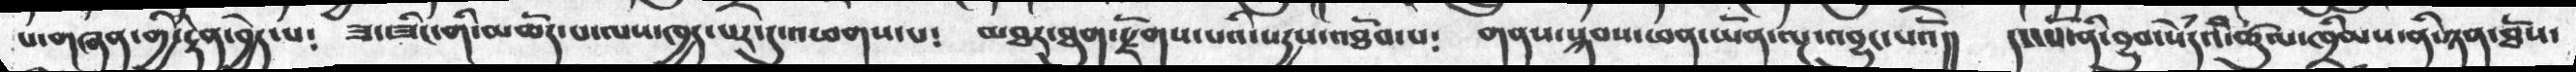པ་གཞན་གྱི་རྟེན་བྱེད་པ༴ ཟང་ཟིང་གི་མཆོད་པ་ལས་ཁྱད་པར་དུ་འཕགས་པ༴ མཐར་ཐུག་སྫོགས་པའི་སདྱས་འཐོབ་པ༴ གནས་སྐབས་ཕན་ཡོན་འབྱུང་པའོ།། དང་པོ་ནི་བྱུབ་སེཾདའི་ཚུལ་ཁྲིམས་ནི་ཉན་ཐོས་
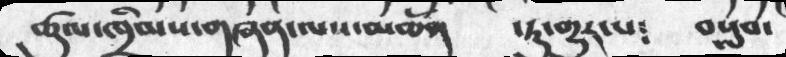ཚུལ་ཁྲིམས་གཞན་ལས་མཆོག ་ཏུ་གྱུར་པ༴ བསླབ་
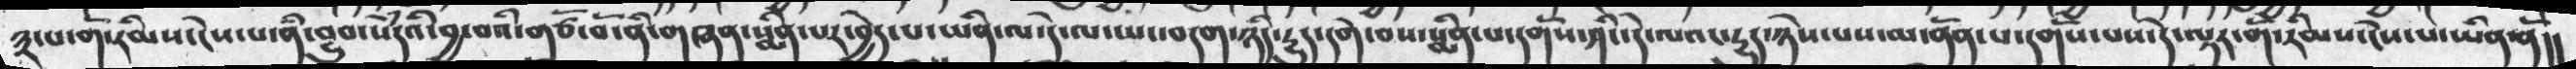༣་པ་གོ་རིམས་ངེས་པ་ནི་བྱུབ་སེཾདའི་བྱ་བའི་གཙོ་བོ་ནི་གཞན་སྨིན་པར་བྱེད་པ་ཡིན་ལ་དེ་ལ་ཡང་བདག་ཉིད་རྱུད་དགེ་བས་སྨིན་པ་དགོས་ཤིང་དེ་ལའང་རྱུད་ཉེས་པས་མ་ནོན་པ་དགོས་པས་དེ་ལྟར་གོ་རིམས་ངེས་པ་ཡིན་ནོ།།
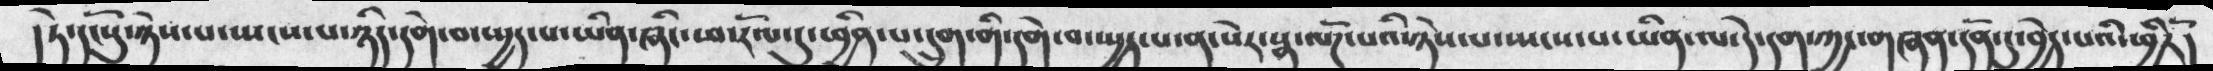།ཏེ་དངོསུ་ཉེས་པ་སྤངས་པ་ཉིད་དགེ་བ་སྤྱད་པ་ཡིན་ཞིང་ཕ་རོལ་དུ་ཕྱིན་པ་དྲུག་གི་དགེ་བ་སྤྱད་པ་ན་སེར་སྣ་ལོཌ་པའི་ཉེས་པ་སྤངས་པ་ཡིན་ལ་དེ་དག་ཀྱང་གཞན་དོན་དུ་བྱེད་པའི་ཕྱིརོ།
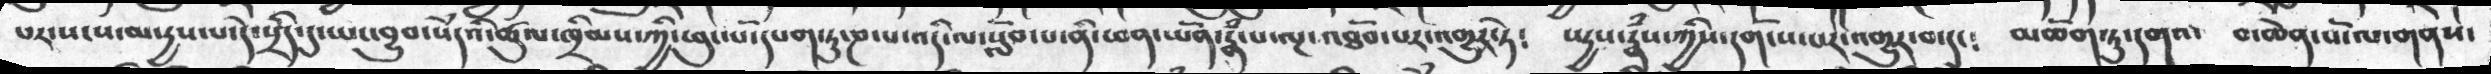པར་སངས་མ་དྱས་པ་དེ་སྲིད་དུ་ཡང་བྱུབ་སེཾདའི་ཚུལ་ཁྲིམས་ཀྱི་ཕུང་པོ་དཔག་ཏུ་ཎ་པ་འདི་ལ་སློབ་པ་ནི་ཕན་ཡོན་རྣཾ་པ་ལྔ་འཐོབ་པར་འགྱུར་ཏེ༴ སདྱས་རྣཾས་ཀྱིས་དགོངས་པར་འགྱུར་བ་དང༴ མཆོག་ཏུ་དགའ་ བ་ཆེན་པོ་ལ་གནས་
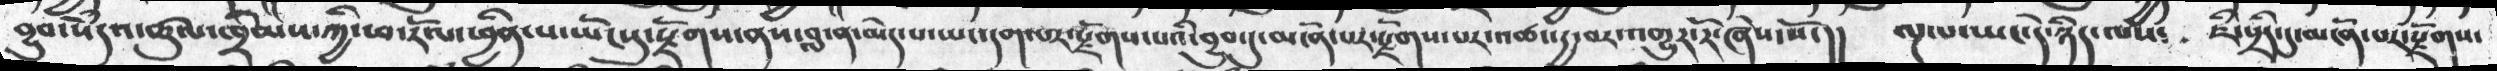བྱུབ་སེཾདའ་ཚུལ་ཁྲིམས་ཀྱི་ཕ་རོལ་ཕྱིན་པ་ཡོངསུ་སཛོགས་ནས་བླ་ན་མེད་པ་ཡང་དག་པར་སྫོགས་པའི་བྱུབ་དུ་མངོན་པར་སྫོགས་པར་འཚང་དྱ་བར་འགྱུར་རོ་ཞེས་སོ་།། ལྔ་པ་ཡང་དེ་ཉིད་ལས༴ ཇི་སྲིད་དུ་མངོན་པར་སྫོགས་
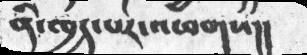ནི་ཁྱད་པར་འཕགས།།
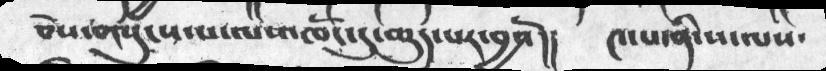ཅེས་གསུངས་པ་ལས་ཁོང་དུ་ཆུད་པར་བྱའོ།།     ༤་པ་ནི་ས་ལས་
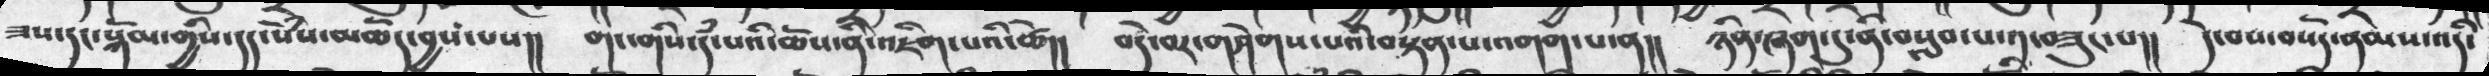ཟས་དང་སྐོམ་གྱིས་དད་སེསྃ་མཆོད་བྱས་པས།།   གང་གིས་དཾ་ཆོས་ནི་འཇིག་པའི་ཚེ།།   བདེ་བར་གཤེགས་པའི་བསྟན་པ་འགག་པ་ན།།   ཉིན་ཞག་དུ་ནི་བསླབ་པ་༡་བཟུང་པ།།   དེ་བས་བསོད་ནམས་འདི་
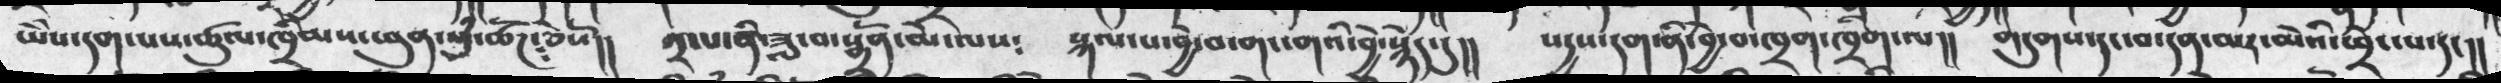ཡེེས་དག་པས་ཚུལ་ཁྲིམས་ཕུན་སུཾ་ཚོཌ་ཅེསོ།།   ༢་པ་ནི་ཟླ་བ་སྒྲོན་མེ་ལས༴    སྐལ་པ་བྱེ་བ་གང་གའི་བྱེ་སྙེད་དུ།།  སདྱས་དག་ནི་བྱེ་བ་ཁྲག་ཁྲིག་ལ།།  གདུགས་དང་བ་དན་མར་མེའི་ཕྲེང་པ་དང།།
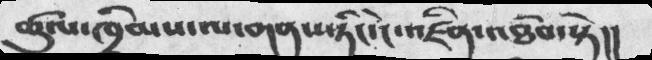ཚུལ་ཁྲིམས་ལ་གནས་ཏིང་ངེ་འཛིན་འཐོབ་སྟེ།།
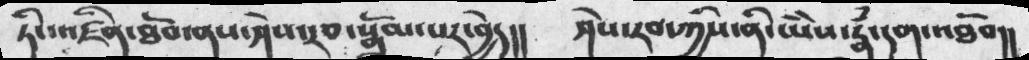ཏིང་འཛིན་ཐོབ་ནས་ཤེས་རབ་སྒོམ་པར་བྱེད།།  ཤེས་རབ་ཀྱིས་ནི་ཡཻས་རྣཾ་དག་འཐོབ།།
